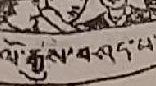ལོ་རྒྱུས་བཤད་པ་
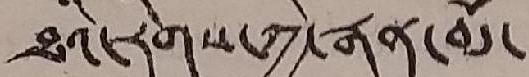ཐའི་རིགས་ཀྱི་རྒན་མོ་
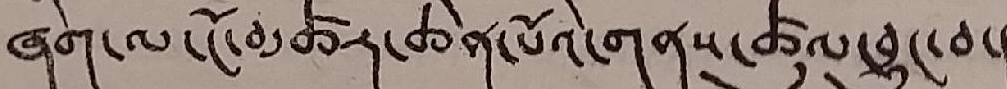ཞིག་ལ་ངོ་མཚར་ཆེན་པོའི་གནས་ཚུལ་བྱུང་བ་།
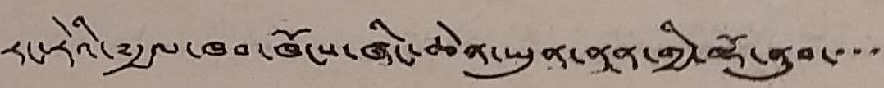རང་རེའི་༸རྒྱལ་ཁབ་ཁོངས་ཞིང་ཆེན་ཡུན་ནཱན་གྱི་ལྷོ་ནུབ་་་་
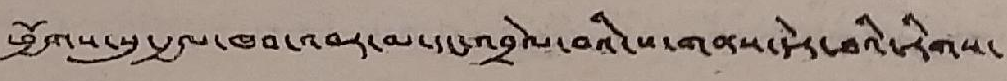ཕྱོགས་སུ་རྒྱལ་ཁབ་འབར་མ་དང་འབྲེལ་བའི་ས་གནས་དེར་ཐའི་རིགས་
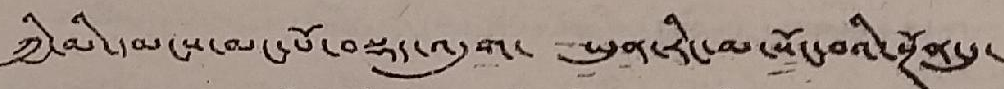ཀྱི་མི་དམངས་མང་པོ་བསྡད་འདུག་ ཡུན་རིང་མ་སོང་བའི་སྔོན་དུ་
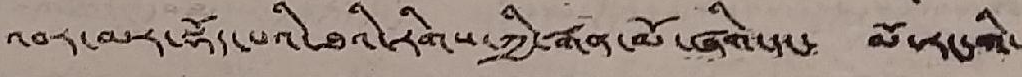འབར་མར་སྡོད་པའི་ཐའི་རིགས་ཀྱི་རྒན་མོ་ཞིག་དང་ མོ་རང་གི་
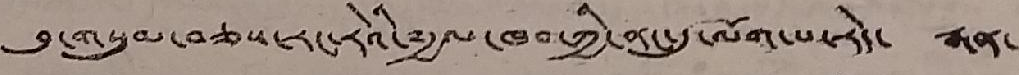བུ་གསུམ་བཅས་རང་རེའི་༸རྒྱལ་ཁབ་ཀྱི་ནང་དུ་ལོག་པ་རེད་ རྒན་
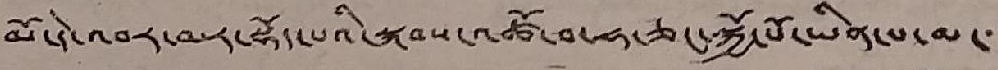མོ་དེ་འབར་མར་སྡོད་པའི་སྐབས་འཚོ་བ་ཧ་ཅང་སྐྱོ་པོ་ཡིན་པ་མ་་་
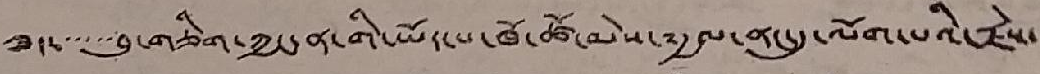ཟད་་་་་བུ་གཅིག་ཀྱང་ན་གི་ཡོད་པ་ཁོ་ཚོ་མེས་༸རྒྱལ་ནང་དུ་ལོག་པའི་རྗེས་
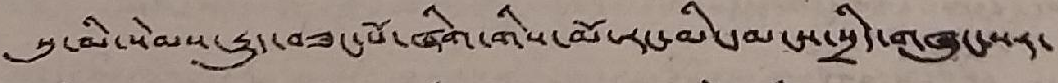སུ་མི་སེམས་རྒྱུད་བཟང་པོ་ཞིག་གིས་མོ་རང་མི་དམངས་སྲིད་གཞུང་སར་
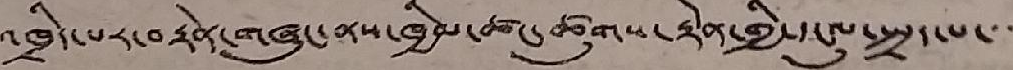འཁྲིད་པར་བརྟེན་གཞུང་ནས་ཁྱིམ་ཚང་ཚུགས་རྟེན་གྱི་དངུལ་སྤྲད་པ་་་
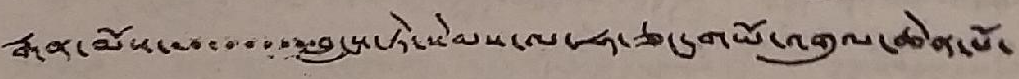རྒན་མོས་་་་་་་་་བླངས་ཏེ་སེམས་ལ་ཧ་ཅང་གཡོ་འགུལ་ཆེན་པོ་
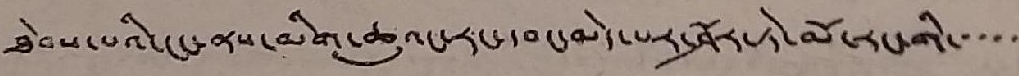ཐེབས་པའི་ངང་ནས་མིག་ཆུའང་རང་དབང་མེད་པར་ཤོར་ཏེ་མོ་རང་གི་་་་་
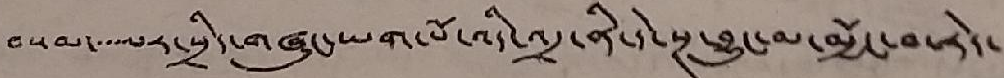བསམ་་་་་པར་སྲིད་གཞུང་ཡག་པོ་འདི་འདྲ་ནི་དེ་སྔ་བྱང་མ་མྱོང་བ་རེད་
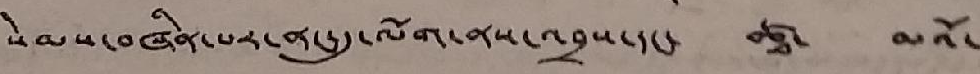སེམས་བཞིན་པར་ནང་དུ་ལོག་ནས་འབྲས་དང་ ཚ་ མའོ་
